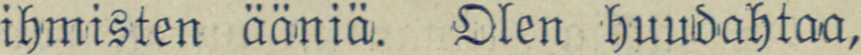ihmisten ääniä. Olen huudahtaa,
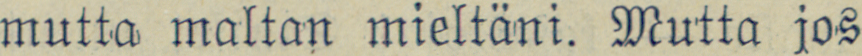mutta maltan mieltäni. Mutta jos
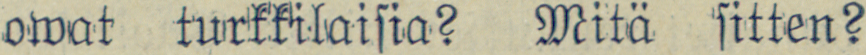owat turkkilaisia? Mitä sitten?
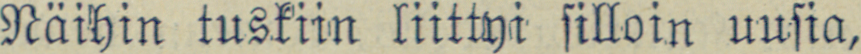Näihin tuskiin liittyi silloin uusia,
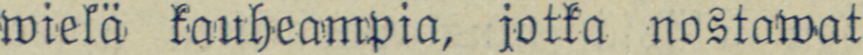wielä kauheampia, jotka nostawat
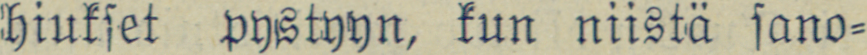hiukset pystyyn, kun niistä sano-
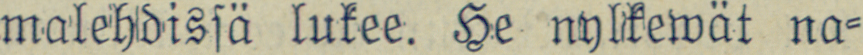malehdissä lukee. He nylkewät na-
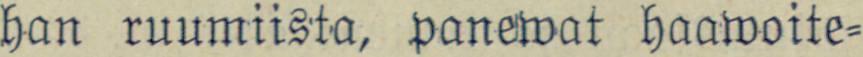han ruumiista, panewat haawoite-
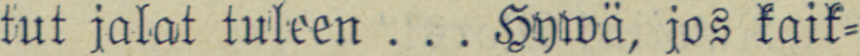tut jalat tuleen . . . Hywä, jos kaik-
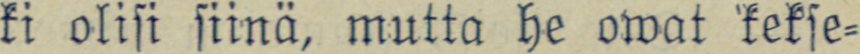ki olisi siinä, mutta he owat kekse-
